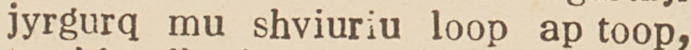jyrgurq mu shviuriu loop ap toop,
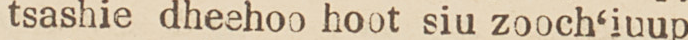tsashie dheehoo hoot siu zooch'iuup
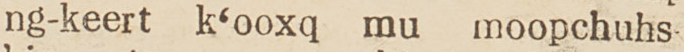ng-keert k'ooxq mu moopchuhs
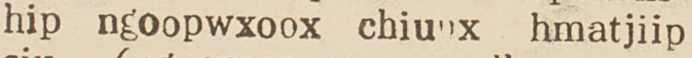hip ngoopwxoox chiuux hmatjiip
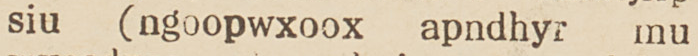siu (ngoopwxoox apndhyr mu
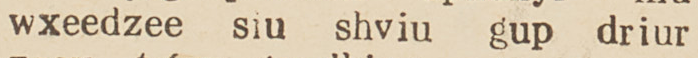wxeedzee siu shviu gup driur
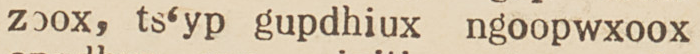zoox, ts'yp gupdhiux ngoopwxoox
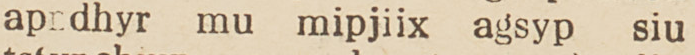apndhyr mu mipjiix agsyp siu
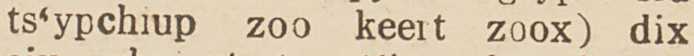ts'ypchiup zoo keert zoox) dix
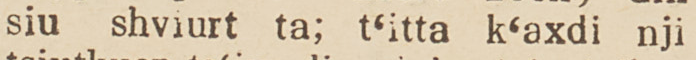siu shviurt ta; t'itta k'axdi nji
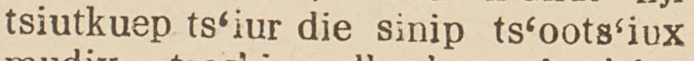tsiutkuep ts'iur die sinp ts'oots'iux
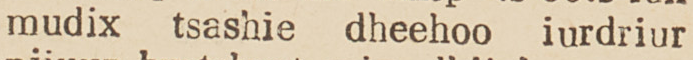mudix tsashie dheehoo iurdriur
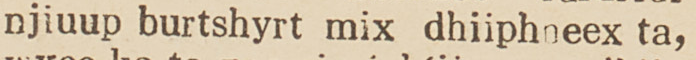njiuup burtshyrt mix dhiiphoeex ta,
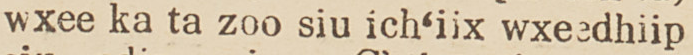wxee ka ta zoo siu ich'iix wxeedhiip
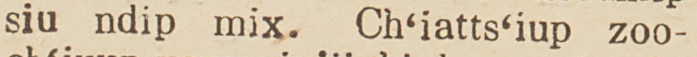siu ndip mix. Ch'iatts'iup zoo-
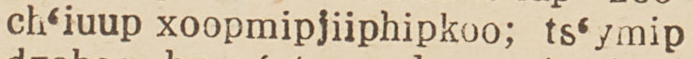ch'iuup xoopmipjiiphipkoo; ts'ymip
